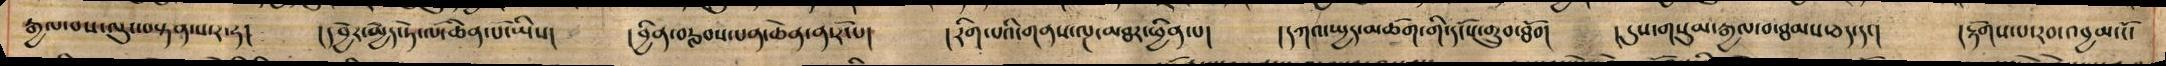རྒྱལ་པས་ལུང་བསྟན་ས་ར་ཧ། །དབྱེར་མྱེད་ཏེ་ལོ་ཆེན་པོ་ཡིས། །བྱིན་བརླབས་པན་ཆེན་ན་རོ་པ། །རིག་པའི་གནས་ལྔ་མཐར་ཕྱིན་པ། །དཀའ་སྤྱད་མཆོག་གི་དངོས་གྲུབ་རཐོབ། །དུས་གསུམ་རྒྱལ་བ་ཐམས་ཅད་དང། །རྟོགས་པ་རབ་འབྱམ་ངོ་
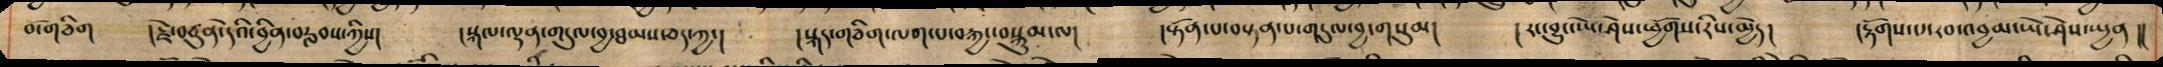བོ་གཅིག །རྗེ་བཙུན་དེའི་བྱིན་བརླབས་ཀྱིས། །སྐལ་ལྡན་གདུལ་བུ་ཐམས་ཅད་ཀྱང། །སྐད་གཅིག་ལག་པ་བརྐྱང་བསྐུམ་ལ། །སྟོན་པ་བསྟན་པ་གདུལ་བྱ་གསུམ། །རང་བྱུང་ཡེ་ཤེས་ཕྱོགས་རིས་མྱེད། །རྟོགས་པ་རབ་འབྱམ་ཡེ་ཤེས་སྤྱན །།
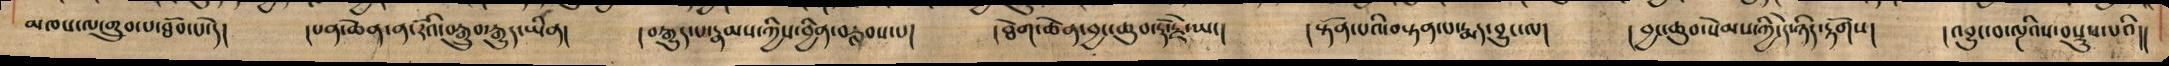མཁས་ལ་གྲུབ་པ་ཐོབ་པ་དེ། །པན་ཆེན་ན་རོའི་བསྒྲུབ་རྒྱུད་ཡིན། །བརྒྱུད་པ་རྣམས་ཀྱིས་བྱིན་བརླབས་པ། །ཐེག་ཆེན་བྱང་ཆུབ་རྡོ་རྗེ་ཡང། །སྟོན་པའི་བསྟན་པ་རྨད་དུ་བྱུང་ལ། །བྱང་ཆུབ་སེམས་ཀྱི་དེ་ཉིད་རྟོགས། །འབྱུང་བ་ལྔའིས་བསྡུས་པའི།།
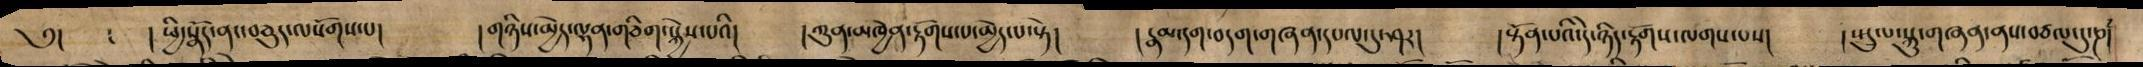༅། ༴ ། ཕྱི་སྣོད་ནང་བཅུད་ལསོགས་པ། །གཉིས་མྱེད་ལྷན་གཅིག་སྐྱེས་པའི། །ཀུན་མཁྱེན་རྟོགས་པ་མྱེད་པ་སྟེ། །རྣམ་དག་བདག་གཞན་དཔལ་དུ་ཤར། །སྟོན་པའོ་དེ་ཉིད་རྟོགས་ལགས་པས། །སྤྲུལ་སྐུ་གཞན་ནས་བཙལ་དུ་ཎ།
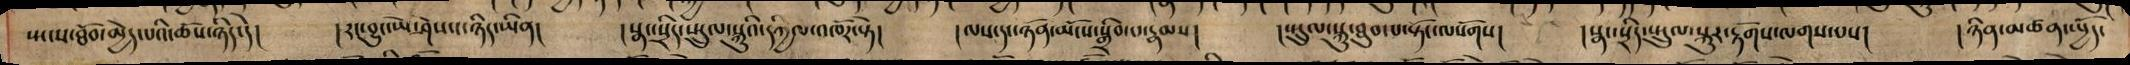ཡངས་ཐོབ་མྱེད་པའི་ཆོས་ཉིད་དེ། །རང་བྱུང་ཡེ་ཤེས་ང་ཉིད་ཡིན། །སྣང་སྲིད་སྤྲུལ་སྐུའི་དཀྱིལ་འཁོར་སྟེ། །ལས་དང་ཉོན་མོངས་སྒྲིབ་པ་རྣམས། །སྤྲུལ་སྐུ་ཐུབ་པ་སྟོང་ལསོགས། །སྣང་སྲིད་སྤྲུལ་སྐུར་རྟོགས་ལགས་པས། །ཉིན་མཚན་སྤྱོད་
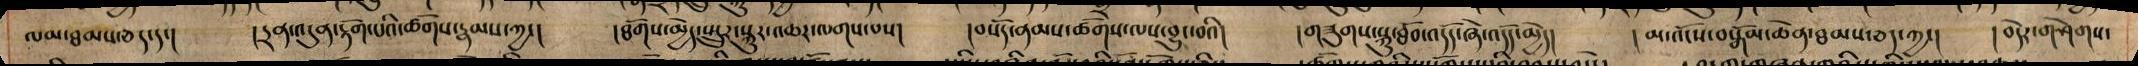ལམ་ཐམས་ཅད་དང། །དྲན་འདུན་རྟོག་པའི་ཚོགས་རྣམས་ཀྱང། །ཐོགས་མྱེད་སྤྲུར་སྐུར་འཆར་ལགས་པས། །བསོད་ནམས་ཚོགས་ལས་བྱུང་བའི། །གཟུགས་སྐུ་ཐོབ་འདོད་ཞེ་འདོད་མྱེད། །མ་འོངས་བསྒོམ་ཆེན་ཐམས་ཅད་ཀྱང། །བདེར་གཤེགས་
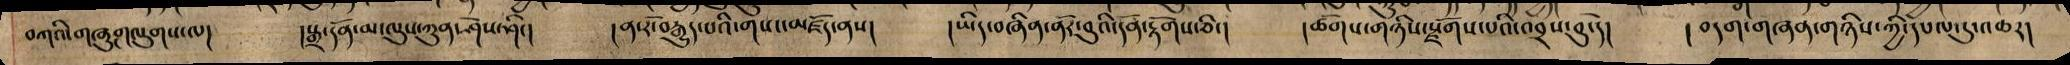བཀའི་གཞུང་ལུགས་ལ། །སྒྲ་དོན་མ་ལུས་ཀུན་ཤེས་ཤིང། །ན་རོ་བརྒྱུད་པའི་གསང་མཛོད་ནས། །ཡིད་བཞིན་ནོར་བུའི་དོན་རྟོགས་ཅིང། །ཚོགས་གཉིས་སྫོགས་པའི་འབྲས་བུ་དེ། །བདག་གཞན་གཉིས་ཀྱི་དཔལ་དུ་འཆར།
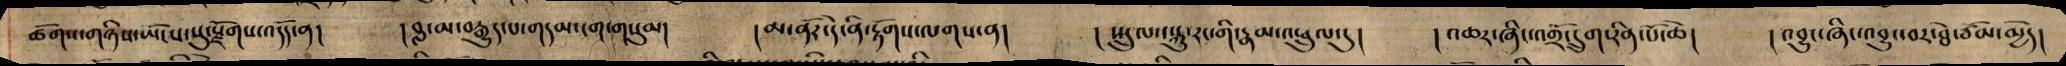ཚོགས་གཉིས་ཡོངས་སུ་སྫོགས་འདོད་ན། །བླ་མ་བརྒྱུད་པ་གདམ་ངག་གསུམ། །མ་ནོར་དེ་ནི་རྟོགས་ལགས་ན། །སྤྲུལ་སྐུ་རང་གི་རྣམ་འཕྲུལ་དུ། །འཆར་ཞིང་འགྲོ་དྲུག་རིན་པོ་ཆེ། །འབྱུང་ཞིང་འབྱུང་བར་ཐེ་ཙོམ་མྱེད།
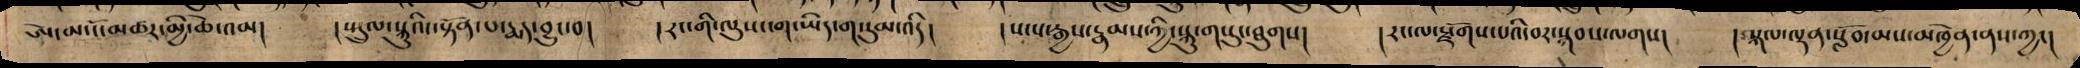ཨེ་མ་ངོ་མཚར་མྱི་ཆེ་འམ། །སྤྲུལ་སྐུའི་སྟོན་པ་རྨད་བྱུང་བ། །རང་གི་ལུས་ངག་ཡིད་གསུམ་འདི། །སངས་རྒྱས་རྣམས་ཀྱི་སྐུ་གསུང་ཐུགས། །རང་ལ་སྫོགས་པའི་བར་སྐབས་ལགས། །སྐལ་ལྡན་སློབ་མས་མཁྱེན་ནས་ཀྱང།
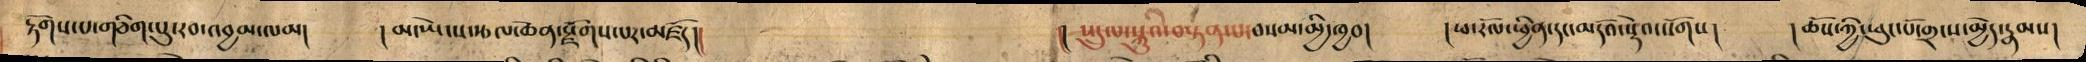རྟོགས་པ་གཅིག་པུ་རབ་འབྱམ་ལམ། །མ་ཡེངས་རྩལ་ཆེན་སྫོགས་པར་མཛོད།། །། སྤྲུལ་སྐུའི་བསྟན་པ་བསམ་མྱི་ཁྱབ། །ཕ་རོལ་ཕྱིན་དང་མདོའ་སྡེའ་སོགས། །ཆོས་ཀྱི་ཕུང་པོ་གྲངས་མྱེད་རྣམས།
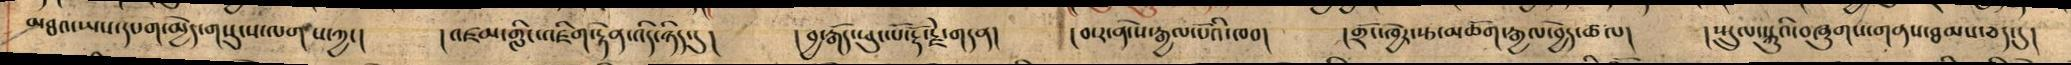མཐའ་ཡས་དཔག་མྱེད་གསུངས་ལགས་ཀྱང། །འཛམ་གླིང་འཇིག་རྟེན་འདི་ཉིད་དུ། །བྱ་རྒོད་ཕུང་པོ་རྡོ་རྗེ་གདན། །བ་ར་ན་སེ་རྒྱལ་པོའི་ཁབ། །གྲོང་ཁྱེར་རྩ་མཆོག་རྒྱལ་བྱེད་ཚལ། །སྤྲུལ་སྐུའི་བཞུགས་གནས་ཐམས་ཅད་དུ།
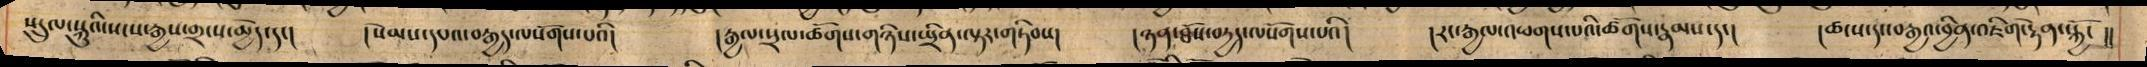སྤྲུལ་སྐུའི་སངས་རྒྱས་གྲངས་མྱེད་དང། །སེམས་དཔའ་བརྒྱད་ལསོགས་པའི། །རྒྱལ་སྲལ་ཚོགས་གཉིས་སྤྲིན་ལྟར་གཏིབས། །ཉན་ཐོས་བརྱད་ལསོགས་པའི། །རང་རྒཡལ་འཕགས་པའི་ཚོགས་རྣམས་དང། །ཚངས་དང་བརྒྱའ་བྱིན་འཇིག་རྟེན་སྐྱོང །།
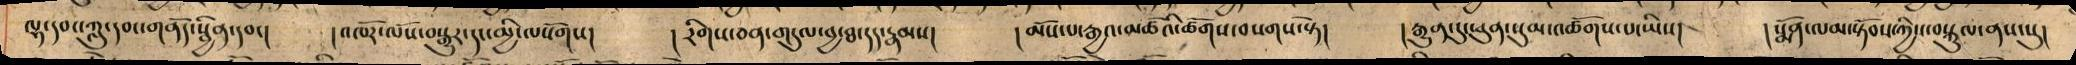ལྷ་དབང་ཀླུ་དབང་གནོད་སྦྱིན་དབང། །འཁོར་ལོས་བསྒྱུར་དང་མྱི་ལསོགས། །རིག་ཅན་གདུལ་བྱ་ཐ་དད་རྣམས། །མོས་པ་རྒྱའ་མཚོའི་ཚོགས་བསགས་སྟེ། །རྒྱུན་དུ་ཕུན་སུམ་འཚོགས་པ་ཡིས། །སྨོན་ལམ་སྟོབས་ཀྱིས་བསྐུལ་ནས་སུ།
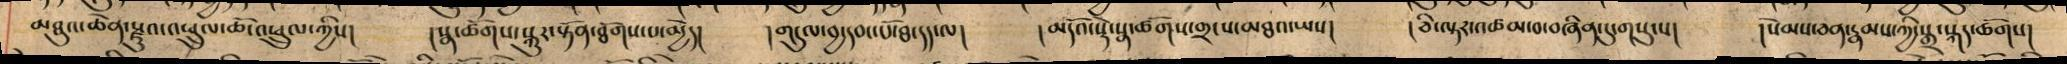མཐུའ་ཆེན་སྫུའ་འཕྲུལ་ཀྱིས། སྣ་ཚོགས་སྐུར་སྟོན་ཐོགས་པ་མྱེད། །གདུལ་བྱ་དབང་པོ་ཐ་དད་ལ། །མདོའ་སྡེ་སྣ་ཚོགས་གྲངས་མཐའ་ཡས། །ཅི་ལྟར་འཚམ་བ་བཞིན་དུ་གསུངས། །སེམས་ཅན་རྣམས་ཀྱི་སྒྲ་སྐད་ཚོགས།
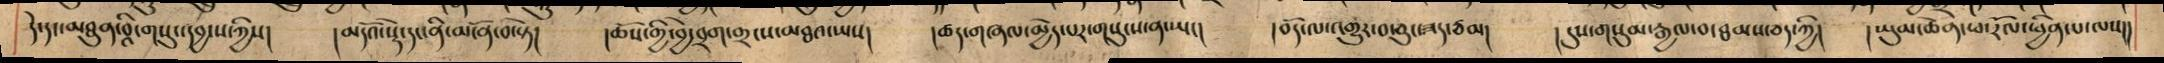དེ་དང་མཐུན་བི་གསུང་དབྱངས་ཀྱིས། །མདོའ་སྡེ་དང་ནི་མངོན་བ་སྟེ། །ཆོས་གྱི་བྱེ་བྲག་གྲངས་མཐའ་ཡས། །ཚད་གཞལ་མྱེད་པར་གསུངས་ན་ཡང། །བོད་ལ་འགྱུར་བ་ཅུང་ཟད་ཙམ། །དུས་གསུམ་རྒྱལ་བ་ཐམས་ཅད་ཀྱི། །ཡུམ་ཆེན་ཕ་རོལ་ཕྱིན་པ་ལས།།
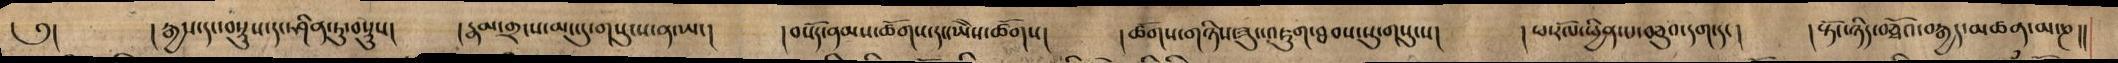༅། །རྒྱས་དང་བསྡུས་དང་ཤིན་ཏུ་བསྡུས། །རྣམ་གྲངས་མང་དུ་གསུངས་ན་ཡང། །བསོད་ནམས་ཚོགས་དང་ཡཻས་ཚོགས། །ཚོགས་གཉིས་ཟུང་འཇུག་རཐབས་སུ་གསུངས། །ཕ་རོལ་ཕྱིན་པ་བཅུའ་དག་དང། །སྟོང་ཉིད་བཅྭོའ་བརྒྱད་མཚན་མ་ཎ།།
